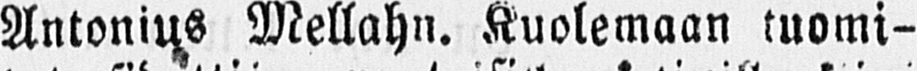Antonius Mellahn. Kuolemaan tuomi-
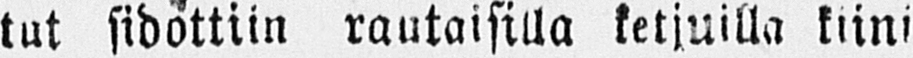tut sidottiin rautaisilla ketjuilla kiini
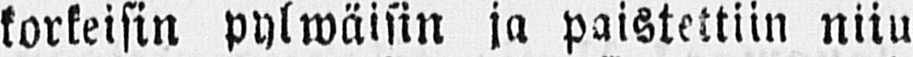korkeisin pylwäisin ja paistettiin niiu
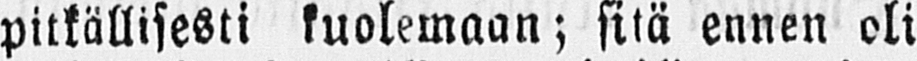pitkällisesti kuolemaan; sitä ennen oli
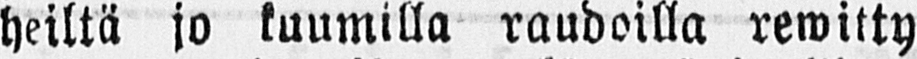heiltä jo kuumilla raudoilla rewitty
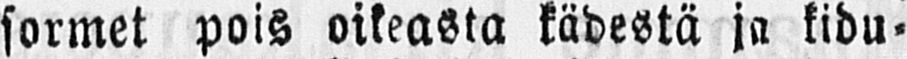sormet pois oikeasta kädestä ja kidu-
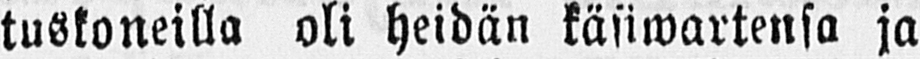tuskoneilla oli heidän käsiwartensa ja
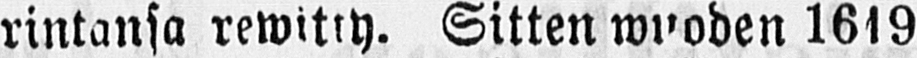rintansa rewitiy. Sitten wuoden 1619
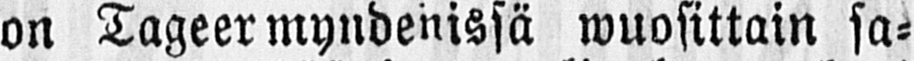on Tageermyndenissä wuosittain sa-
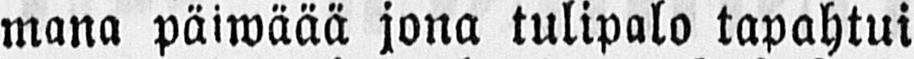mana päiwäää jona tulipalo tapahtui
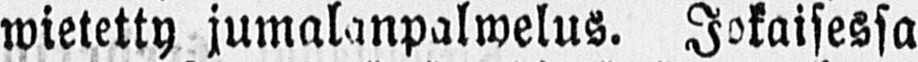wietetty jumalanpalwelus. Jokaisessa
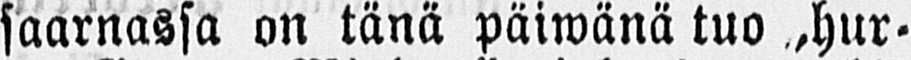saarnassa on tänä päiwänä tuo ,hur-
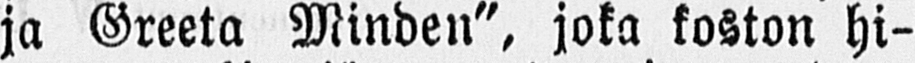ja Greeta Minden", joka koston hi-
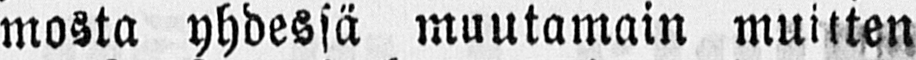mosta yhdessä muutamain muitten
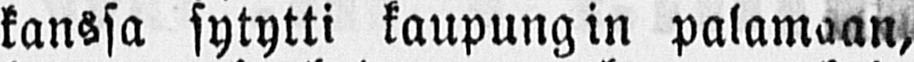kanssa sytytti kaupungin palamaan-
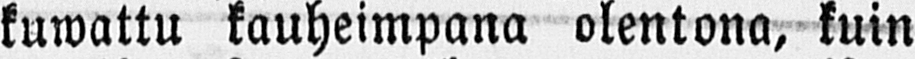kuwattu kauheimpana olentona, kuin
